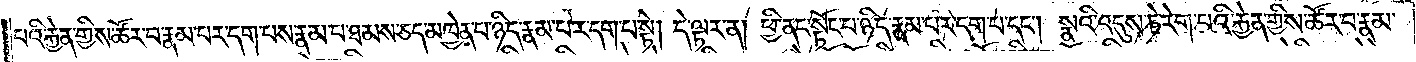པའི་རྐྱེན་གྱིས་ཚོར་བ་རྣམ་པར་དག་པས་རྣམ་པ་ཐམས་ཅད་མཁྱེན་པ་ཉིད་རྣམ་པར་དག་པ་སྟེ། དེ་ལྟར་ན། ཕྱི་ནང་སྟོང་པ་ཉིད་རྣམ་པར་དག་པ་དང་༑ སྣའི་འདུས་ཏེ་རེག་པའི་རྐྱེན་གྱིས་ཚོར་བ་རྣམ་
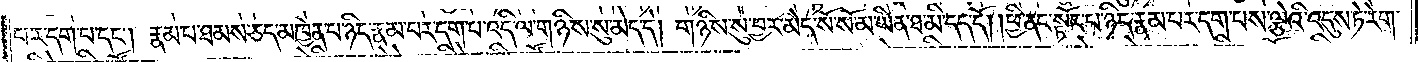པར་དག་པ་དང༌། རྣམ་པ་ཐམས་ཅད་མཁྱེན་པ་ཉིད་རྣམ་པར་དག་པ་འདི་ལ་གཉིས་སུ་མེད་དེ། གཉིས་སུ་བྱར་མེད་སོ་སོ་མ་ཡིན་ཐ་མི་དད་དོ། །ཕྱི་ནང་སྟོང་པ་ཉིད་རྣམ་པར་དག་པས་ལྕེའི་འདུས་ཏེ་རེག་
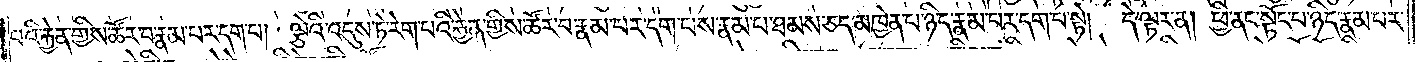པའི་རྐྱེན་གྱིས་ཚོར་བ་རྣམ་པར་དག་པ། ལྕེའི་འདུས་ཏེ་རེག་པའི་རྐྱེན་གྱིས་ཚོར་བ་རྣམ་པར་དག་པས་རྣམ་པ་ཐམས་ཅད་མཁྱེན་པ་ཉིད་རྣམ་པར་དག་པ་སྟེ། དེ་ལྟར་ན། ཕྱི་ནང་སྟོང་པ་ཉིད་རྣམ་པར་
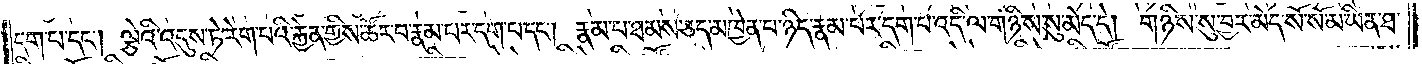དག་པ་དང༌། ལྕེའི་འདུས་ཏེ་རེག་པའི་རྐྱེན་གྱིས་ཚོར་བ་རྣམ་པར་དག་པ་དང༌། རྣམ་པ་ཐམས་ཅད་མཁྱེན་པ་ཉིད་རྣམ་པར་དག་པ་འདི་ལ་གཉིས་སུ་མེད་དེ། གཉིས་སུ་བྱར་མེད་སོ་སོ་མ་ཡིན་ཐ་
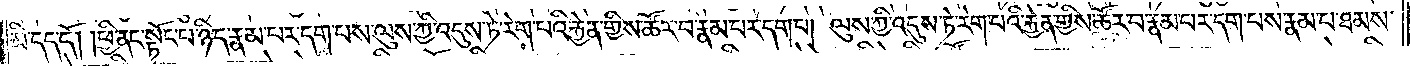མི་དད་དོ། །ཕྱི་ནང་སྟོང་པ་ཉིད་རྣམ་པར་དག་པས་ལུས་ཀྱི་འདུས་ཏེ་རེག་པའི་རྐྱེན་གྱིས་ཚོར་བ་རྣམ་པར་དག་པ། ལུས་ཀྱི་འདུས་ཏེ་རེག་པའི་རྐྱེན་གྱིས་ཚོར་བ་རྣམ་པར་དག་པས་རྣམ་པ་ཐམས་
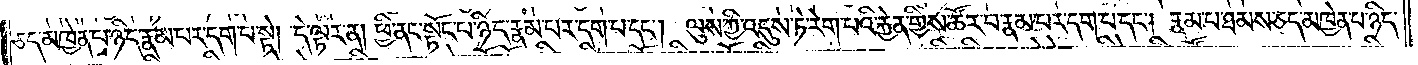ཅད་མཁྱེན་པ་ཉིད་རྣམ་པར་དག་པ་སྟེ། དེ་ལྟར་ན། ཕྱི་ནང་སྟོང་པ་ཉིད་རྣམ་པར་དག་པ་དང༌། ལུས་ཀྱི་འདུས་ཏེ་རེག་པའི་རྐྱེན་གྱིས་ཚོར་བ་རྣམ་པར་དག་པ་དང༌། རྣམ་པ་ཐམས་ཅད་མཁྱེན་པ་ཉིད་
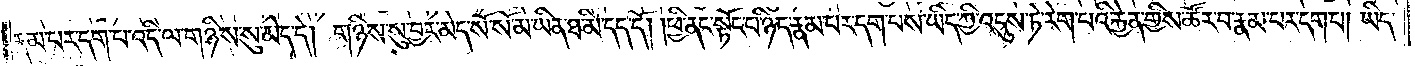རྣམ་པར་དག་པ་འདི་ལ་གཉིས་སུ་མེད་དེ། གཉིས་སུ་བྱར་མེད་སོ་སོ་མ་ཡིན་ཐ་མི་དད་དོ། །ཕྱི་ནང་སྟོང་པ་ཉིད་རྣམ་པར་དག་པ་ཡིད་ཀྱི་འདུས་ཏེ་རེག་པའི་རྐྱེན་གྱིས་ཚོར་བ་རྣམ་པར་དག་པ། ཡིད་
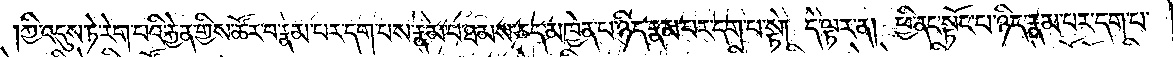ཀྱི་འདུས་ཏེ་རེག་པའི་རྐྱེན་གྱིས་ཚོར་བ་རྣམ་པར་དག་པས་རྣམ་པ་ཐམས་ཅད་མཁྱེན་པ་ཉིད་རྣམ་པར་དག་པ་སྟེ། དེ་ལྟར་ན། ཕྱི་ནང་སྟོང་པ་ཉིད་རྣམ་པར་དག་པ་
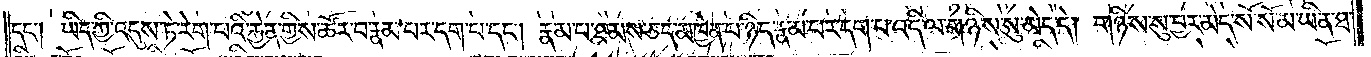དང༌། ཡིད་ཀྱི་འདུས་ཏེ་རེག་པའི་རྐྱེན་གྱིས་ཚོར་བ་རྣམ་པར་དག་པ་དང༌། རྣམ་པ་ཐམས་ཅད་མཁྱེན་པ་ཉིད་རྣམ་པར་དག་པ་འདི་ལ་གཉིས་སུ་མེད་དེ། གཉིས་སུ་བྱར་མེད་སོ་སོ་མ་ཡིན་ཐ་
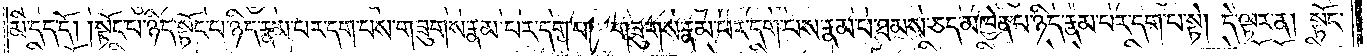མི་དད་དོ། །སྟོང་པ་ཉིད་སྟོང་པ་ཉིད་རྣམ་པར་དག་པས་གཟུགས་རྣམ་པར་དག་པ། གཟུགས་རྣམ་པར་དག་པས་རྣམ་པ་ཐམས་ཅད་མཁྱེན་པ་ཉིད་རྣམ་པར་དག་པ་སྟེ༑ དེ་ལྟར་ན། སྟོང་
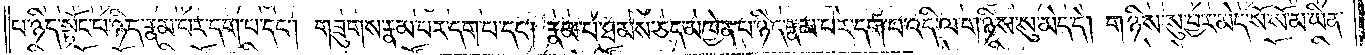པ་ཉིད་སྟོང་པ་ཉིད་རྣམ་པར་དག་པ་དང༌། གཟུགས་རྣམ་པར་དག་པ་དང༌། རྣམ་པ་ཐམས་ཅད་མཁྱེན་པ་ཉིད་རྣམ་པར་དག་པ་འདི་ལ་གཉིས་སུ་མེད་དེ། གཉིས་སུ་བྱར་མེད་སོ་སོ་མ་ཡིན་
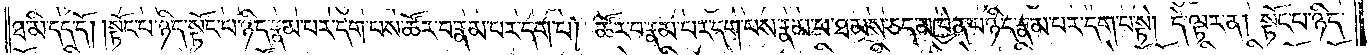ཐ་མི་དད་དོ། །སྟོང་པ་ཉིད་སྟོང་པ་ཉིད་རྣམ་པར་དག་པས་ཚོར་བ་རྣམ་པར་དག་པ། ཚོར་བ་རྣམ་པར་དག་པས་རྣམ་པ་ཐམས་ཅད་མཁྱེན་པ་ཉིད་རྣམ་པར་དག་པ་སྟེ། དེ་ལྟར་ན། སྟོང་པ་ཉིད་
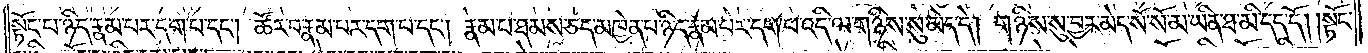སྟོང་པ་ཉིད་རྣམ་པར་དག་པ་དང༌། ཚོར་བ་རྣམ་པར་དག་པ་དང༌། རྣམ་པ་ཐམས་ཅད་མཁྱེན་པ་ཉིད་རྣམ་པར་དག་པ་འདི་ལ་གཉིས་སུ་མེད་དེ། གཉིས་སུ་བྱར་མེད་སོ་སོ་མ་ཡིན་ཐ་མི་དད་དོ། །སྟོང་
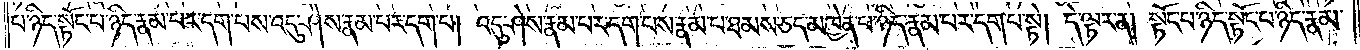པ་ཉིད་སྟོང་པ་ཉིད་རྣམ་པར་དག་པས་འདུ་ཤེས་རྣམ་པར་དག་པ། འདུ་ཤེས་རྣམ་པར་དག་པས་རྣམ་པ་ཐམས་ཅད་མཁྱེན་པ་ཉིད་རྣམ་པར་དག་པ་སྟེ། དེ་ལྟར་ན། སྟོང་པ་ཉིད་སྟོང་པ་ཉིད་རྣམ་
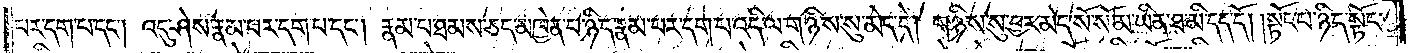པར་དག་པ་དང༌། འདུ་ཤེས་རྣམ་པར་དག་པ་དང༌། རྣམ་པ་ཐམས་ཅད་མཁྱེན་པ་ཉིད་རྣམ་པར་དག་པ་འདི་ལ་གཉིས་སུ་མེད་དེ། གཉིས་སུ་བྱར་མེད་སོ་སོ་མ་ཡིན་ཐ་མི་དད་དོ། །སྟོང་པ་ཉིད་སྟོང་
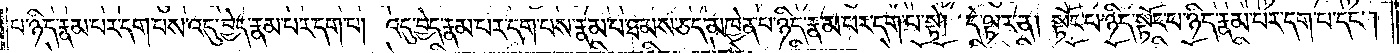པ་ཉིད་རྣམ་པར་དག་པས་འདུ་བྱེད་རྣམ་པར་དག་པ། འདུ་བྱེད་རྣམ་པར་དག་པས་རྣམ་པ་ཐམས་ཅད་མཁྱེན་པ་ཉིད་རྣམ་པར་དག་པ་སྟེ། དེ་ལྟར་ན། སྟོང་པ་ཉིད་སྟོང་པ་ཉིད་རྣམ་པར་དག་པ་དང༌།
